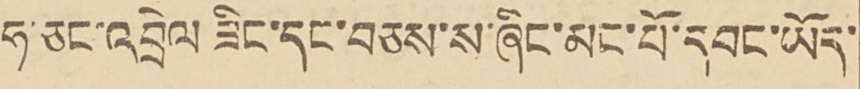ཧ་ཅང་འབྲེལ ཟིང་དང་བཅས་ས་ཞིང་མང་པོ་དབང་ཡོད་
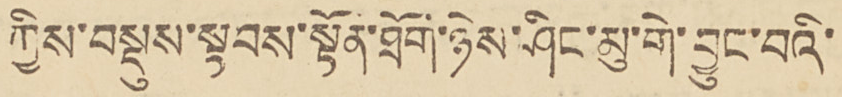ཀྱིས་བསྡུས་སྟབས་སྟོན་ཐོག་ཉེས་ཤིང་མུ་གེ་བྱཽང་བའི་
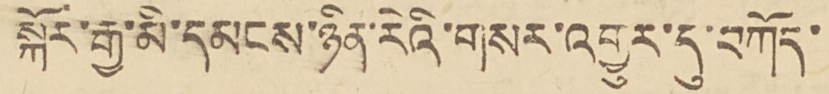སྐོར་རྒྱ་མི་དམངས་ཉིན་རེའི་གསར་འགྱུར་དུ་བཀོད་
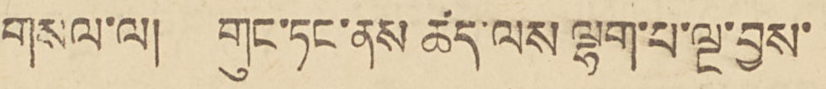གསལ་ལ། གུང་ཏང་ནས ཚད་ལས ལྷག་པ་ལྔ་བྱས་
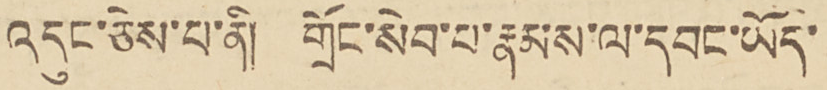འདུང་ཅེས་པ་ནི། གྲོང་སེབ་པ་རྣམས་ལ་དབང་ཡོད་
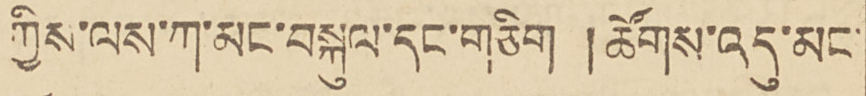ཀྱིས་ལས་ཀ་མང་བསྐུལ་དང་གཅིག །ཚོགས་འདུ་མང་
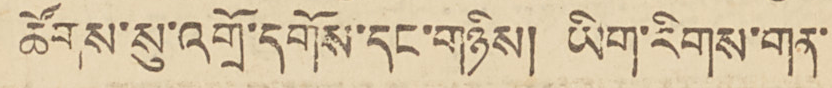ཚོགས་སུ་འགྲོ་དགོས་དང་གཉིས། ཡིག་རིགས་གན་
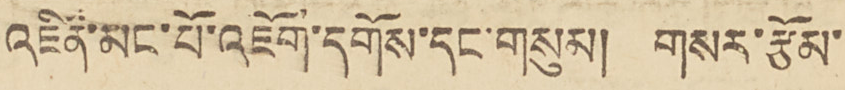འཛིན་མང་པོ་འཇོག་དགོས་དང་གསུམ། གསར་རྩོམ་
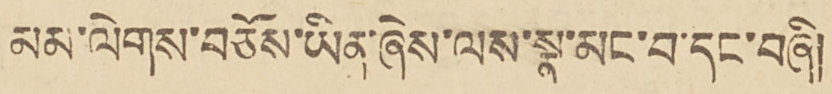མམ་ལེགས་བཅོས་ཡིན་ཞེས་ལས་སྣ་མང་བ་དང་བཞི།
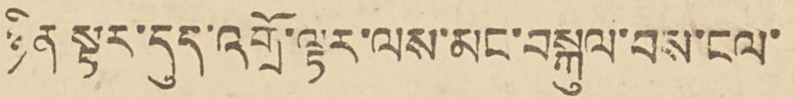ཉིན ལྟར་དུད་འགྲོ་ལྟར་ལས་མང་བསྐུལ་བས་ངལ་
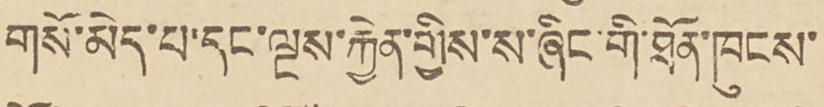གསོ་མེད་པ་དང་ལྔས་རྐྱེན་གྱིས་ས་ཞིང་གི་ཐོན་ཁུངས་
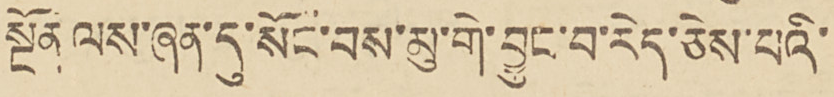སྔོན་ལས་ཞན་དུ་སོང་བས་མུ་གེ་བྱུང་བ་རེད་ཅེས་པའི་
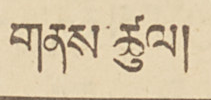གནས་ཚུལ།
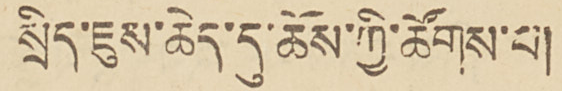སྲིད་ཇུས་ཆེད་དུ་ཆོས་ཀྱི་ཚོགས་པ།
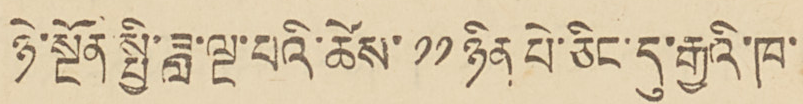ཉེ་སྔོན སྤྱི་ཟླ་ལྔ་པའི་ཚེས་༡༡ཉིན པེ་ཅིང་དུ་རྒྱའི་ཁ་
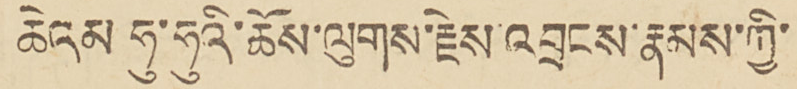ཆེའམ ཧུ་ཧུའི་ཆོས་ལུགས་རྗེས་འབྲངས་རྣམས་ཀྱི་
